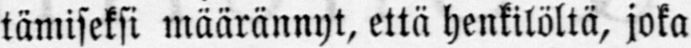tämiseksi määrännyt, että henkilöltä, joka
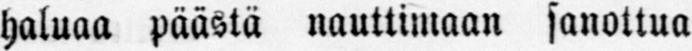haluaa päästä nauttimaan sanottua
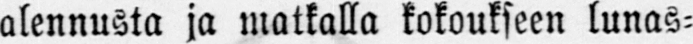alennusta ja matkalla kokoukseen lunas-
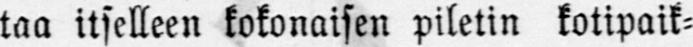taa itselleen kokonaisen piletin kotipaik-
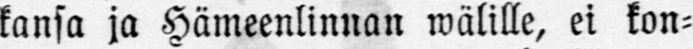kansa ja Hämeenlinnan wälille, ei kon-
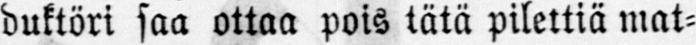duktöri saa ottaa pois tätä pilettiä mat-
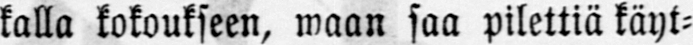kalla kokoukseen, waan saa pilettiä käyt-
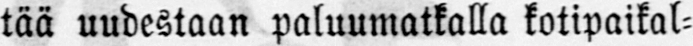tää uudestaan paluumatkalla kotipaikal-
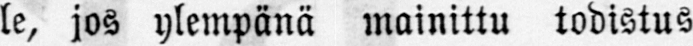le, jos ylempänä mainittu todistus
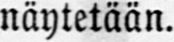näytetään.
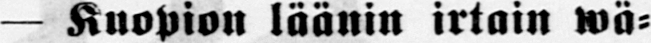— Kuopion läänin irtain wä-
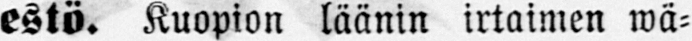estä. Kuopion läänin irtaimen wä-
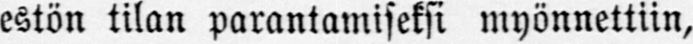estön tilan parantamiseksi myönnettiin,
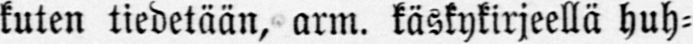kuten tiedetään, arm. käskykirjeellä huh-
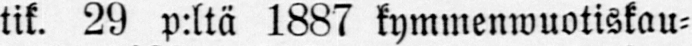tik. 29 p:ltä 1887 kymmenwuotiskau-
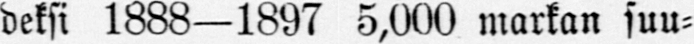deksi 1888—1897 5,000 markan suu-
